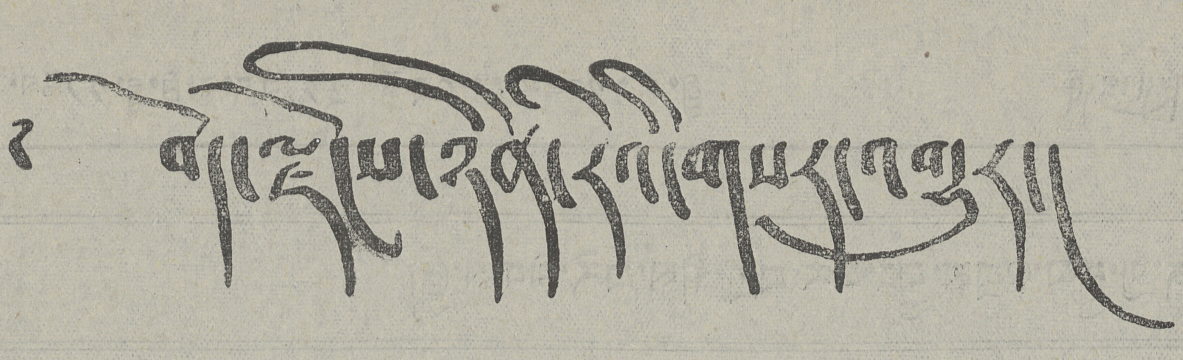༄ བོད་ལྗོངས་ཉིན་རེའི་གསར་འགྱུར།
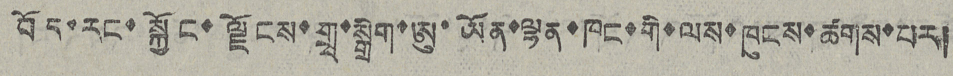བོད་རང་སྐྱོང་ལྗོངས་གྲྭ་སྒྲིག་ཨུ་ཡོན་ལྷན་ཁང་གི་ལས་ཁུངས་ཚགས་པར།
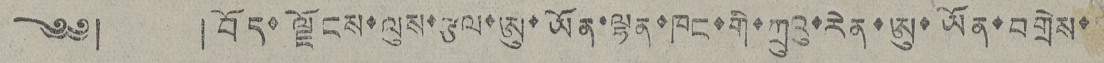༄༅། །བོད ལྗོངས་ལུས་རྩལ་ཨུ་ཡོན་ལྷན་ཁང་གི་ཀྲུའུ་རེན་ཨུ་ཡོན་བགྲེས་
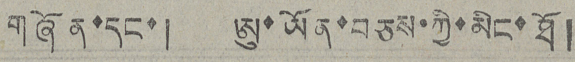གཞོན་དང་། ཨུ་ཡོན་བཅས་ཀྱི་མིང་ཐོ།
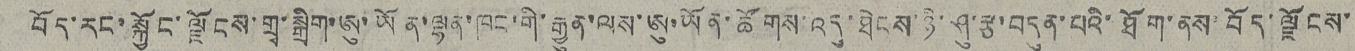བོད་རང་སྐྱོང་ལྗོངས་གྲྭ་སྒྲིག་ཨུ་ཡོན་ལྷན་ཁང་གི་རྒྱུན་ལས་ཨུ་ཡོན་ཚོགས་འདུ་ཐེངས་ཉི་ཤུ་རྩ་བདུན་པའི་ཐོག་ནས་བོད་ལྗོངས་
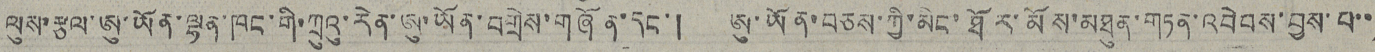ལུས་རྩལ་ཨུ་ཡོན་ལྷན་ཁང་གི་ཀྲུའུ་རེན་ཨུ་ཡོན་བགྲེས་གཞོན་དང་། ཨུ་ཡོན་བཅས་ཀྱི་མིང་ཐོར་མོས་མཐུན་གཏན་འབེབས་བྱས་པ་་
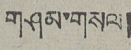གཤམ་གསལ།
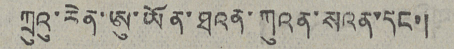ཀྲུའུ་རེན་ཨུ་ཡོན་ཐའན་ཀུའན་སའན་དང་།
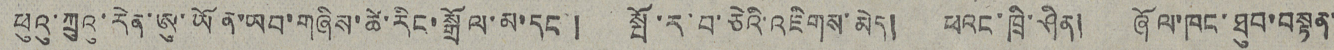ཕུའུ་ཀྲུའུ་རེན་ཨུ་ཡོན་ཡབ་གཞིས་ཚེ་རིང་སྒྲོལ་མ་དང་། སྤོ་ར་བ་ཅེའི་འཇིགས་མེད། ཕའང་ཁྲི་ཤིན། ཞོལ་ཁང་ཐུབ་བསྟན་
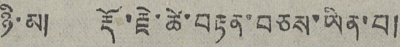ཉི་མ། རྡོ་རྗེ་ཚེ་བརྟན་བཅས་ཡིན་པ།
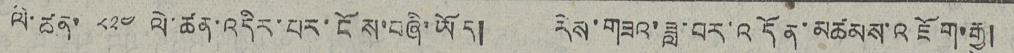ལེ་ཚན་ ༨༢༤ ལེ་ཚན་འདིར་པར་ངོས་བཞི་ཡོད། རེས་གཟའ་ཟླ་བར་འདོན་མཚམས་འཇོག་རྒྱུ།
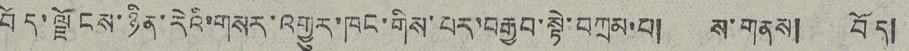བོད་ལྗོངས་ཉིན་རེའི་གསར་འགྱུར་ཁང་གིས་པར་བརྒྱབ་སྟེ་བཀྲམ་པ། ས་གནས། བོད།
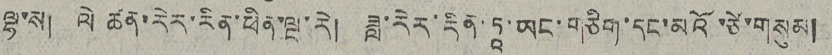ལྷ་ས། ལེ ཚན་རེར་རིན་ཕིན་ལྔ་རེ། ཟླ་རིར་རིན་ཏཱ་ཡང་གཅིག་དང་མའོ་ཙེ་གསུམ།
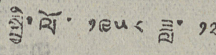སྤྱི་ལོ་ ༡༩༥༨ ཟླ་ ༡༢
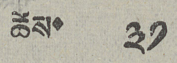ཚེས་ ༣༡
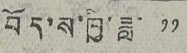བོད་ས་ཁྱི་ཟླ་ ༡༡
